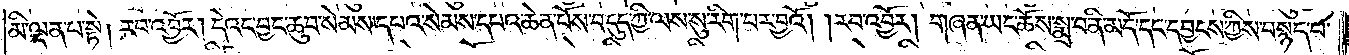མི་ལྡན་པ་སྟེ། རབ་འབྱོར། དེའང་བྱང་ཆུབ་སེམས་དཔའ་སེམས་དཔའ་ཆེན་པོས་བདུད་ཀྱི་ལས་སུ་རིག་པར་བྱའོ། །རབ་འབྱོར། གཞན་ཡང་ཆོས་སྨྲ་བ་ནི་མདོ་དང་དབྱངས་ཀྱིས་བསྙད་པ་
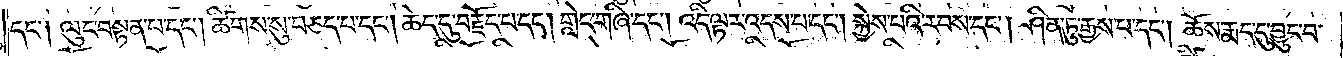དང༌། ལུང་བསྟན་པ་དང༌། ཚིགས་སུ་བཅད་པ་དང༌། ཆེད་དུ་བརྗོད་པ་དང༌། གླེང་གཞི་དང༌། འདི་ལྟར་འདས་པ་དང༌། སྐྱེས་པའི་རབས་དང༌། ཤིན་ཏུ་རྒྱས་པ་དང༌། ཆོས་རྨད་དུ་བྱུང་བ་
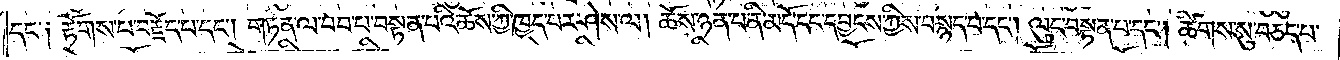དང་༑ རྟོགས་པ་བརྗོད་པ་དང༌། གཏན་ལ་བབ་པ་བསྟན་པའི་ཆོས་ཀྱི་ཁྱད་པར་ཤེས་ལ། ཆོས་ཉན་པ་ནི་མདོ་དང་དབྱངས་ཀྱིས་བསྙད་པ་དང༌། ལུང་བསྟན་པ་དང༌། ཚིགས་སུ་བཅད་པ་
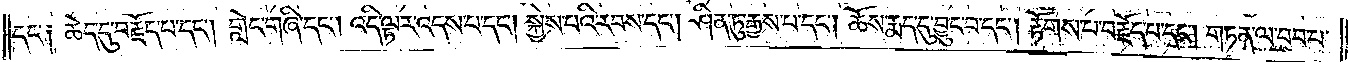དང་༑ ཆེད་དུ་བརྗོད་པ་དང༌། གླེང་གཞི་དང༌། འདི་ལྟར་འདས་པ་དང༌། སྐྱེས་པའི་རབས་དང༌། ཤིན་ཏུ་རྒྱས་པ་དང༌། ཆོས་རྨད་དུ་བྱུང་བ་དང༌། རྟོགས་པ་བརྗོད་པ་དང༌། གཏན་ལ་བབ་པ་
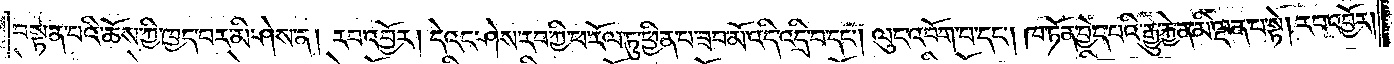བསྟན་པའི་ཆོས་ཀྱི་ཁྱད་པར་མི་ཤེས་ན། རབ་འབྱོར། དེའང་ཤེས་རབ་ཀྱི་ཕ་རོལ་ཏུ་ཕྱིན་པ་ཟབ་མོ་འདི་འདྲི་བ་དང༌། ལུང་འབོག་པ་དང༌། ཁ་ཏོན་བྱེད་པའི་རྒྱུ་རྐྱེན་མི་ལྡན་པ་སྟེ། རབ་འབྱོར།
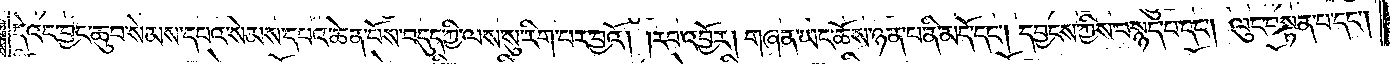དེའང་བྱང་ཆུབ་སེམས་དཔའ་སེམས་དཔའ་ཆེན་པོས་བདུད་ཀྱི་ལས་སུ་རིག་པར་བྱའོ། །རབ་འབྱོར། གཞན་ཡང་ཆོས་ཉན་པ་ནི་མདོ་དང༌། དབྱངས་ཀྱིས་བསྙད་པ་དང༌། ལུང་བསྟན་པ་དང༌།
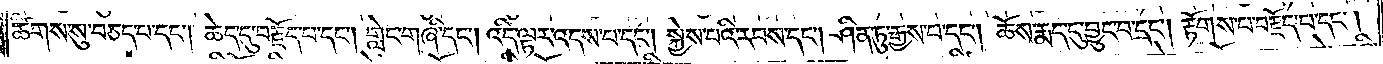ཚིགས་སུ་བཅད་པ་དང༌། ཆེད་དུ་བརྗོད་པ་དང༌། གླེང་གཞི་དང༌། འདི་ལྟར་འདས་པ་དང༌། སྐྱེས་པའི་རབས་དང༌། ཤིན་ཏུ་རྒྱས་པ་དང༌། ཆོས་རྨད་དུ་བྱུང་བ་དང༌། རྟོགས་པ་བརྗོད་པ་དང༌།
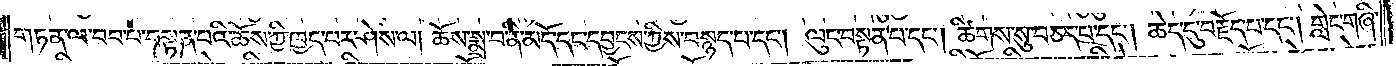གཏན་ལ་བབ་པ་བསྟན་པའི་ཆོས་ཀྱི་ཁྱད་པར་ཤེས་ལ། ཆོས་སྨྲ་བ་ནི་མདོ་དང་དབྱངས་ཀྱིས་བསྙད་པ་དང༌། ལུང་བསྟན་པ་དང༌། ཚིགས་སུ་བཅད་པ་དང༌། ཆེད་དུ་བརྗོད་པ་དང༌། གླེང་གཞི་
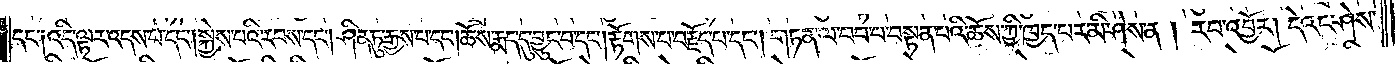དང༌། འདི་ལྟར་འདས་པ་དང༌། སྐྱེས་པའི་རབས་དང༌། ཤིན་ཏུ་རྒྱས་པ་དང༌། ཆོས་རྨད་དུ་བྱུང་བ་དང༌། རྟོགས་པ་བརྗོད་པ་དང༌། གཏན་ལ་བབ་པ་བསྟན་པའི་ཆོས་ཀྱི་ཁྱད་པར་མི་ཤེས་ན། རབ་འབྱོར། དེའང་ཤེས་
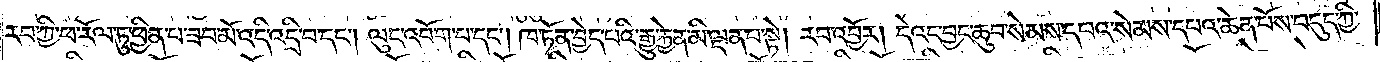རབ་ཀྱི་ཕ་རོལ་ཏུ་ཕྱིན་པ་ཟབ་མོ་འདི་འདྲི་བ་དང༌། ལུང་འབོག་པ་དང༌། ཁ་ཏོན་བྱེད་པའི་རྒྱུ་རྐྱེན་མི་ལྡན་པ་སྟེ། རབ་འབྱོར། དེའང་བྱང་ཆུབ་སེམས་དཔའ་སེམས་དཔའ་ཆེན་པོས་བདུད་ཀྱི་
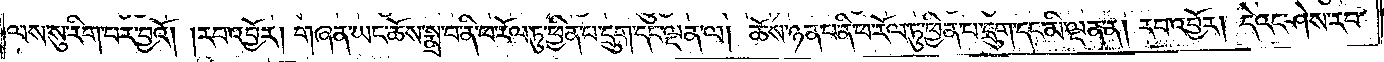ལས་སུ་རིག་པར་བྱའོ། །རབ་འབྱོར། གཞན་ཡང་ཆོས་སྨྲ་བ་ནི་ཕ་རོལ་ཏུ་ཕྱིན་པ་དྲུག་དང་ལྡན་ལ། ཆོས་ཉན་པ་ནི་ཕ་རོལ་ཏུ་ཕྱིན་པ་དྲུག་དང་མི་ལྡན་ན། རབ་འབྱོར། དེའང་ཤེས་རབ་
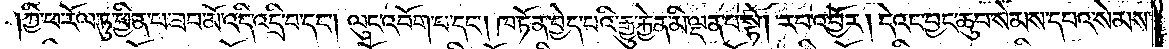ཀྱི་ཕ་རོལ་ཏུ་ཕྱིན་པ་ཟབ་མོ་འདི་འདྲི་བ་དང༌། ལུང་འབོག་པ་དང༌། ཁ་ཏོན་བྱེད་པའི་རྒྱུ་རྐྱེན་མི་ལྡན་པ་སྟེ། རབ་འབྱོར། དེའང་བྱང་ཆུབ་སེམས་དཔའ་སེམས་
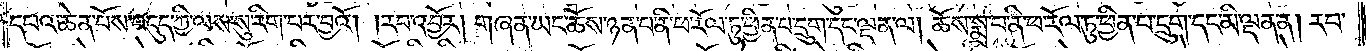དཔའ་ཆེན་པོས་བདུད་ཀྱི་ལས་སུ་རིག་པར་བྱའོ། །རབ་འབྱོར། གཞན་ཡང་ཆོས་ཉན་པ་ནི་ཕ་རོལ་ཏུ་ཕྱིན་པ་དྲུག་དང་ལྡན་ལ། ཆོས་སྨྲ་བ་ནི་ཕ་རོལ་ཏུ་ཕྱིན་པ་དྲུག་དང་མི་ལྡན་ན། རབ་
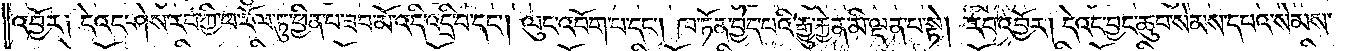འབྱོར༑ དེའང་ཤེས་རབ་ཀྱི་ཕ་རོལ་ཏུ་ཕྱིན་པ་ཟབ་མོ་འདི་འདྲི་བ་དང༌། ལུང་འབོག་པ་དང༌། ཁ་ཏོན་བྱེད་པའི་རྒྱུ་རྐྱེན་མི་ལྡན་པ་སྟེ། རབ་འབྱོར། དེའང་བྱང་ཆུབ་སེམས་དཔའ་སེམས་
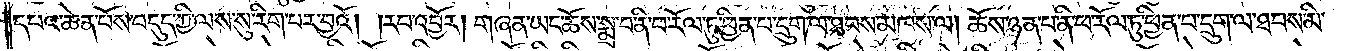དཔའ་ཆེན་པོས་བདུད་ཀྱི་ལས་སུ་རིག་པར་བྱའོ། །རབ་འབྱོར། གཞན་ཡང་ཆོས་སྨྲ་བ་ནི་ཕ་རོལ་ཏུ་ཕྱིན་པ་དྲུག་ལ་ཐབས་མཁས་ལ། ཆོས་ཉན་པ་ནི་ཕ་རོལ་ཏུ་ཕྱིན་པ་དྲུག་ལ་ཐབས་མི་
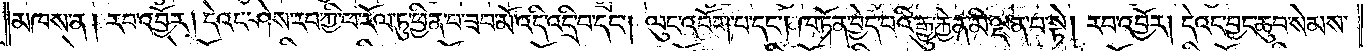མཁས་ན། རབ་འབྱོར། དེའང་ཤེས་རབ་ཀྱི་ཕ་རོལ་ཏུ་ཕྱིན་པ་ཟབ་མོ་འདི་འདྲི་བ་དང༌། ལུང་འབོག་པ་དང༌། ཁ་ཏོན་བྱེད་པའི་རྒྱུ་རྐྱེན་མི་ལྡན་པ་སྟེ། རབ་འབྱོར། དེའང་བྱང་ཆུབ་སེམས་
